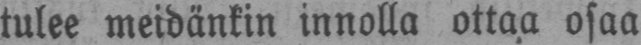tulee meidänkin innolla ottaa osaa
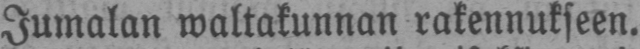Jumalan waltakunnan rakennukseen.
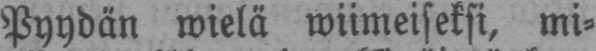Pyydän wielä wiimeiseksi, mi-
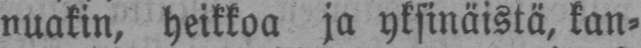nuakin, heikkoa ja yksinäistä, kan-
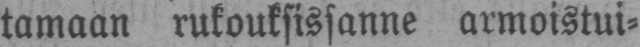tamaan rukouksissanne armoistui-
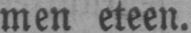men eteen.
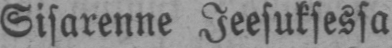Sisarenne Jeesuksessa
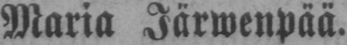Maria Järwenpää.
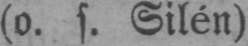(o. s. Silén)
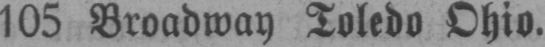105 Broadway Toledo Ohio.
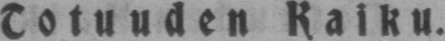Totuuden Kaiku.
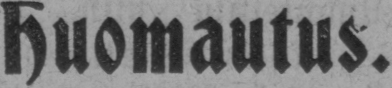Huomautus.
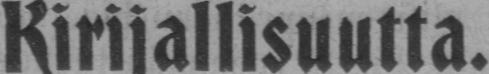Kirijallisuutta.
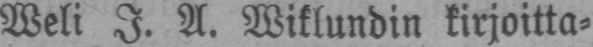Weli J. A. Wiklundin kirjoitta-
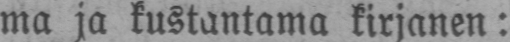ma ja kustantama kirjanen:
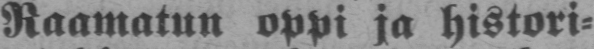Raamatun oppi ja histori-
